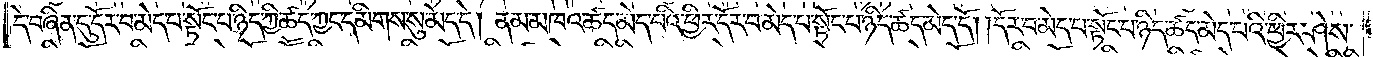དེ་བཞིན་དུ་དོར་བ་མེད་པ་སྟོང་པ་ཉིད་ཀྱི་ཚད་ཀྱང་དམིགས་སུ་མེད་དེ། ནམ་མཁའ་ཚད་མེད་པའི་ཕྱིར་དོར་བ་མེད་པ་སྟོང་པ་ཉིད་ཚད་མེད་དོ། །དོར་བ་མེད་པ་སྟོང་པ་ཉིད་ཚད་མེད་པའི་ཕྱིར་ཤེས་
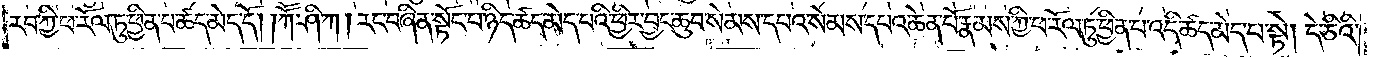རབ་ཀྱི་ཕ་རོལ་ཏུ་ཕྱིན་པ་ཚད་མེད་དོ། །ཀཽ་ཤི་ཀ། རང་བཞིན་སྟོང་པ་ཉིད་ཚད་མེད་པའི་ཕྱིར་བྱང་ཆུབ་སེམས་དཔའ་སེམས་དཔའ་ཆེན་པོ་རྣམས་ཀྱི་ཕ་རོལ་ཏུ་ཕྱིན་པ་ཚད་མེད་པ་སྟེ། དེ་ཅིའི་
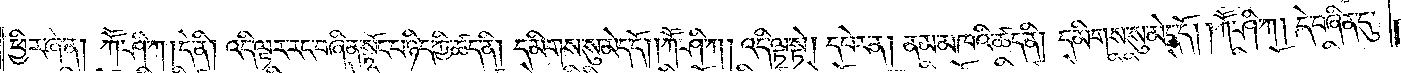ཕྱིར་ཞེ་ན། ཀཽ་ཤི་ཀ །དེ་ནི། འདི་ལྟར་རང་བཞིན་སྟོང་པ་ཉིད་ཀྱི་ཚད་ནི། དམིགས་སུ་མེད་དོ། །ཀཽ་ཤི་ཀ། འདི་ལྟ་སྟེ། དཔེར་ན། ནམ་མཁའི་ཚད་ནི། དམིགས་སུ་མེད་དོ། །ཀཽ་ཤི་ཀ། དེ་བཞིན་དུ་
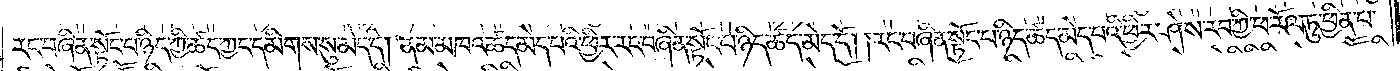རང་བཞིན་སྟོང་པ་ཉིད་ཀྱི་ཚད་ཀྱང་དམིགས་སུ་མེད་དེ། ནམ་མཁའ་ཚད་མེད་པའི་ཕྱིར་རང་བཞིན་སྟོང་པ་ཉིད་ཚད་མེད་དོ། །རང་བཞིན་སྟོང་པ་ཉིད་ཚད་མེད་པའི་ཕྱིར་ཤེས་རབ་ཀྱི་ཕ་རོལ་ཏུ་ཕྱིན་པ་
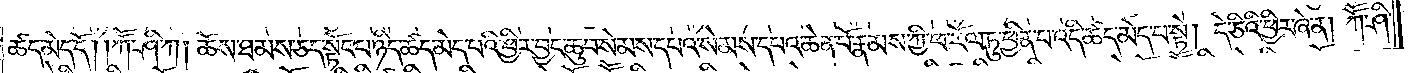ཚད་མེད་དོ། །ཀཽ་ཤི་ཀ། ཆོས་ཐམས་ཅད་སྟོང་པ་ཉིད་ཚད་མེད་པའི་ཕྱིར་བྱང་ཆུབ་སེམས་དཔའ་སེམས་དཔའ་ཆེན་པོ་རྣམས་ཀྱི་ཕ་རོལ་ཏུ་ཕྱིན་པ་འདི་ཚད་མེད་པ་སྟེ། དེ་ཅིའི་ཕྱིར་ཞེ་ན། ཀཽ་ཤི་
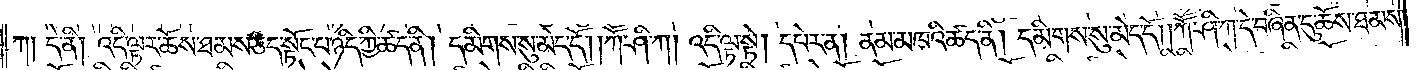ཀ། དེ་ནི། འདི་ལྟར་ཆོས་ཐམས་ཅད་སྟོང་པ་ཉིད་ཀྱི་ཚད་ནི། དམིགས་སུ་མེད་དོ། །ཀཽ་ཤི་ཀ། འདི་ལྟ་སྟེ། དཔེར་ན། ནམ་མཁའི་ཚད་ནི། དམིགས་སུ་མེད་དོ། །ཀཽ་ཤི་ཀ་དེ་བཞིན་དུ་ཆོས་ཐམས་
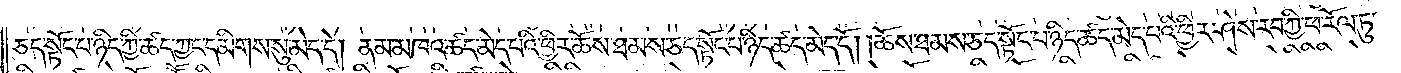ཅད་སྟོང་པ་ཉིད་ཀྱི་ཚད་ཀྱང་དམིགས་སུ་མེད་དེ། ནམ་མཁའ་ཚད་མེད་པའི་ཕྱིར་ཆོས་ཐམས་ཅད་སྟོང་པ་ཉིད་ཚད་མེད་དོ། །ཆོས་ཐམས་ཅད་སྟོང་པ་ཉིད་ཚད་མེད་པའི་ཕྱིར་ཤེས་རབ་ཀྱི་ཕ་རོལ་ཏུ་
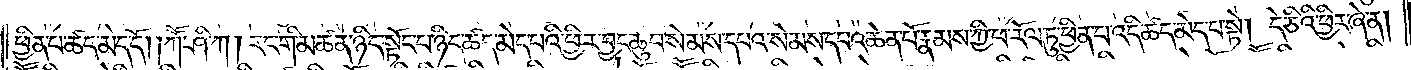ཕྱིན་པ་ཚད་མེད་དོ། །ཀཽ་ཤི་ཀ། རང་གི་མཚན་ཉིད་སྟོང་པ་ཉིད་ཚད་མེད་པའི་ཕྱིར་བྱང་ཆུབ་སེམས་དཔའ་སེམས་དཔའ་ཆེན་པོ་རྣམས་ཀྱི་ཕ་རོལ་ཏུ་ཕྱིན་པ་འདི་ཚད་མེད་པ་སྟེ། དེ་ཅིའི་ཕྱིར་ཞེ་ན།
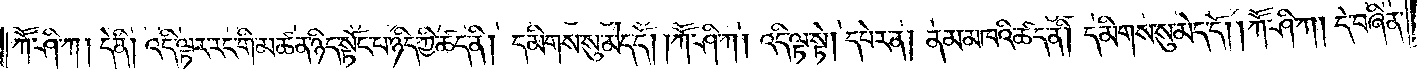ཀཽ་ཤི་ཀ། དེ་ནི། འདི་ལྟར་རང་གི་མཚན་ཉིད་སྟོང་པ་ཉིད་ཀྱི་ཚད་ནི། དམིགས་སུ་མེད་དོ། །ཀཽ་ཤི་ཀ། འདི་ལྟ་སྟེ། དཔེར་ན། ནམ་མཁའི་ཚད་ནི། དམིགས་སུ་མེད་དོ། །ཀཽ་ཤི་ཀ། དེ་བཞིན་
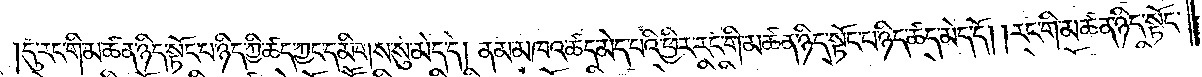དུ་རང་གི་མཚན་ཉིད་སྟོང་པ་ཉིད་ཀྱི་ཚད་ཀྱང་དམིགས་སུ་མེད་དེ། ནམ་མཁའ་ཚད་མེད་པའི་ཕྱིར་རང་གི་མཚན་ཉིད་སྟོང་པ་ཉིད་ཚད་མེད་དོ། །རང་གི་མཚན་ཉིད་སྟོང་
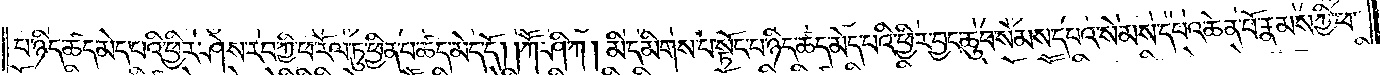པ་ཉིད་ཚད་མེད་པའི་ཕྱིར་ཤེས་རབ་ཀྱི་ཕ་རོལ་ཏུ་ཕྱིན་པ་ཚད་མེད་དོ། །ཀཽ་ཤི་ཀ། མི་དམིགས་པ་སྟོང་པ་ཉིད་ཚད་མེད་པའི་ཕྱིར་བྱང་ཆུབ་སེམས་དཔའ་སེམས་དཔའ་ཆེན་པོ་རྣམས་ཀྱི་ཕ་
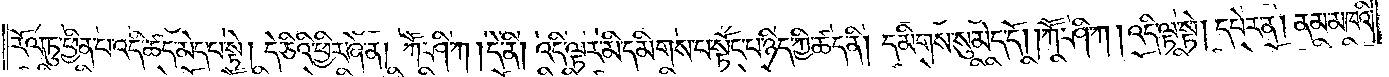རོལ་ཏུ་ཕྱིན་པ་འདི་ཚད་མེད་པ་སྟེ། དེ་ཅིའི་ཕྱིར་ཞེ་ན། ཀཽ་ཤི་ཀ །དེ་ནི། འདི་ལྟར་མི་དམིགས་པ་སྟོང་པ་ཉིད་ཀྱི་ཚད་ནི། དམིགས་སུ་མེད་དོ། །ཀཽ་ཤི་ཀ། འདི་ལྟ་སྟེ། དཔེར་ན། ནམ་མཁའི་
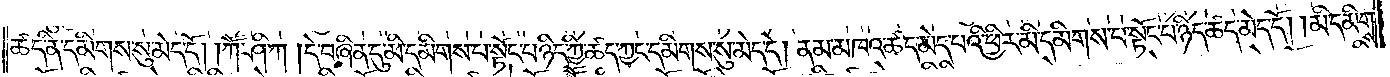ཚད་ནི་དམིགས་སུ་མེད་དོ། །ཀཽ་ཤི་ཀ། དེ་བཞིན་དུ་མི་དམིགས་པ་སྟོང་པ་ཉིད་ཀྱི་ཚད་ཀྱང་དམིགས་སུ་མེད་དེ། ནམ་མཁའ་ཚད་མེད་པའི་ཕྱིར་མི་དམིགས་པ་སྟོང་པ་ཉིད་ཚད་མེད་དོ། །མི་དམིགས་
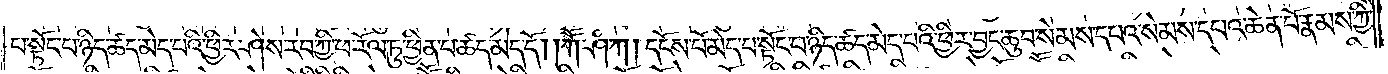པ་སྟོང་པ་ཉིད་ཚད་མེད་པའི་ཕྱིར་ཤེས་རབ་ཀྱི་ཕ་རོལ་ཏུ་ཕྱིན་པ་ཚད་མེད་དོ། །ཀཽ་ཤི་ཀ། དངོས་པོ་མེད་པ་སྟོང་པ་ཉིད་ཚད་མེད་པའི་ཕྱིར་བྱང་ཆུབ་སེམས་དཔའ་སེམས་དཔའ་ཆེན་པོ་རྣམས་ཀྱི་
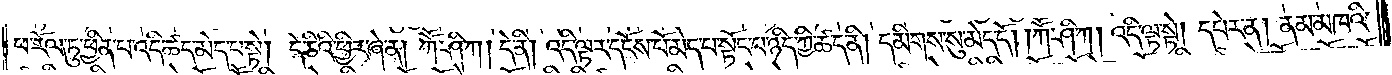ཕ་རོལ་ཏུ་ཕྱིན་པ་འདི་ཚད་མེད་པ་སྟེ། དེ་ཅིའི་ཕྱིར་ཞེ་ན། ཀཽ་ཤི་ཀ། དེ་ནི། འདི་ལྟར་དངོས་པོ་མེད་པ་སྟོང་པ་ཉིད་ཀྱི་ཚད་ནི། དམིགས་སུ་མེད་དོ། །ཀཽ་ཤི་ཀ། འདི་ལྟ་སྟེ། དཔེར་ན། ནམ་མཁའི་
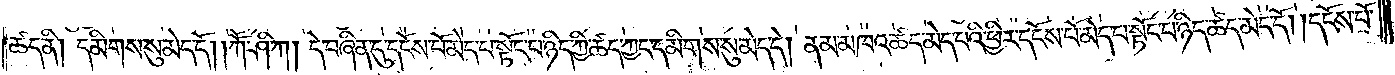ཚད་ནི། དམིགས་སུ་མེད་དོ། །ཀཽ་ཤི་ཀ། དེ་བཞིན་དུ་དངོས་པོ་མེད་པ་སྟོང་པ་ཉིད་ཀྱི་ཚད་ཀྱང་དམིགས་སུ་མེད་དེ། ནམ་མཁའ་ཚད་མེད་པའི་ཕྱིར་དངོས་པོ་མེད་པ་སྟོང་པ་ཉིད་ཚད་མེད་དོ། །དངོས་པོ་
